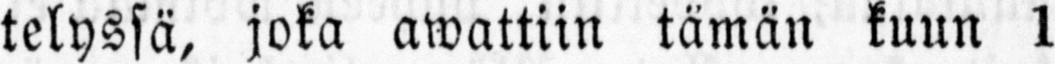telyssä, joka awattiin tämän kuun 1
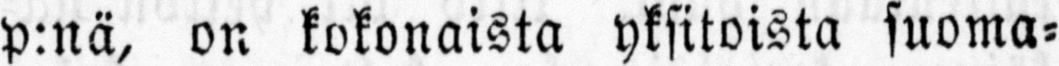p:nä, on kokonaisia yksitoista suoma-
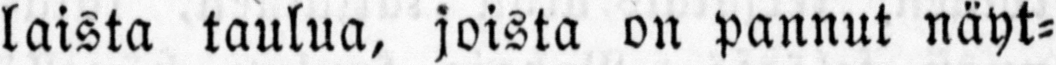laista taulua, joista on pannut näyt-
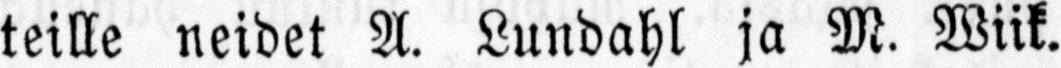teille neidet A. Lundahl ja M. Wiik.
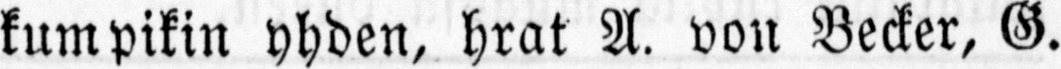kumpikin yhden, hrat A. von Becker, G.
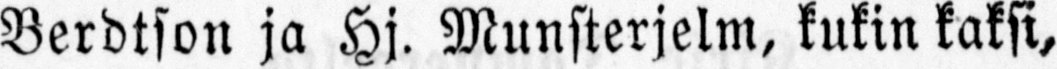Berdtson ja Hj. Munsterjelm, kukin kaksi,
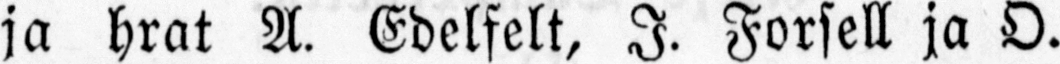ja hrat A. Edelfelt, I. Forsell ja O.
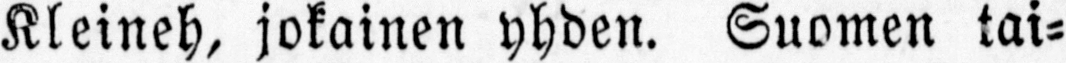Kleineh, jokainen yhden. Suomen tai-
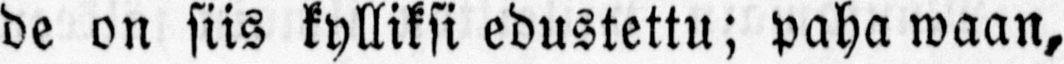de on siis kylliksi edustettu; paha waan,
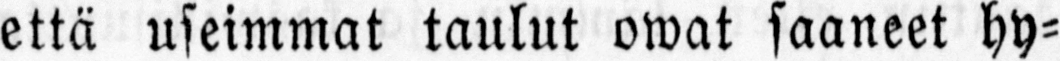että useimmat taulut owat saaneet hy-
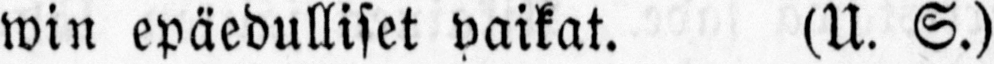win epäedulliset paikat. (U. S.)
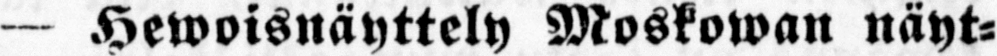— Hewoisnäyttely Moskowan näyt-
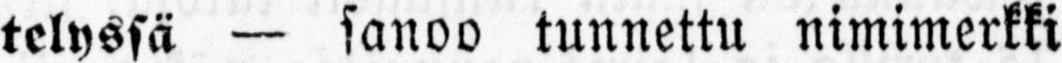telyssä — sanoo tunnettu nimimerkki
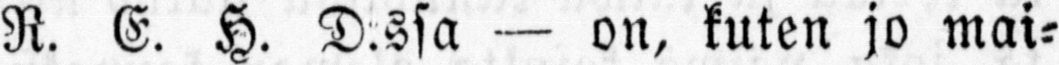R. E. H. D:ssa — on, kuten jo mai-
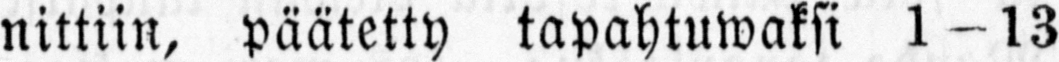nittiin, päätetty tapahtuwaksi 1—13
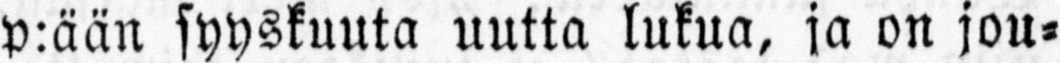p:ään syyskuuta uutta lukua, ja on jou-
